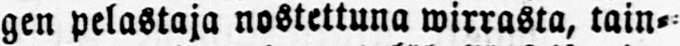gen pelastaja nostettuna wirrasta, tain-
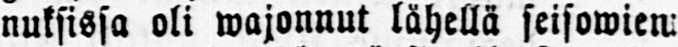nuksissa oli wajonnut lähellä seisowien:
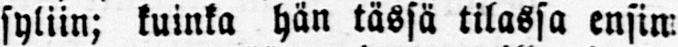syliin; kuinka hän tässä tilassa ensin:
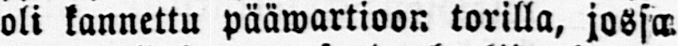oli kannettu pääwartioon torilla, jossa:
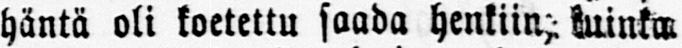häntä oli koetettu saada henkiin, kuinka
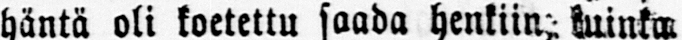hän sieltä oli wiety kotiaan, kolmanteen:
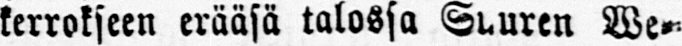kerrokseen erääsä talossa Suuren We-
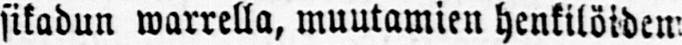sikadun warrella, muutamien henkilöiden:
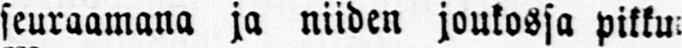seuraamana ja niiden joukossa pikku:
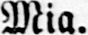Mia.
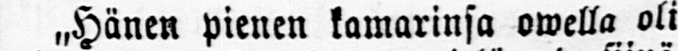˶Hänen pienen kamarinsa owella oli
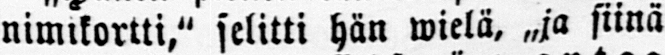nimikortti," selitti hän wielä, „ja siinä
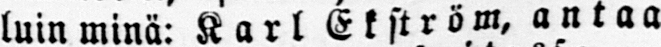luin minä: Karl Ekstr öm, antaa
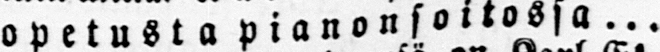opetusta pianonsoitossa...
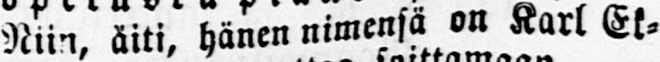Niin, äiti, hänen nimensä Karl Ek-
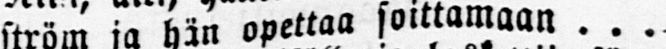ström ja hän opettaa soittamaan . . ..
